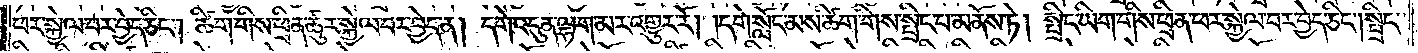ཕར་སྐྱེལ་བར་བྱེད་ཅིང༌། ཚིག་གིས་ཕྲིན་ཚུར་སྐྱེལ་བར་བྱེད་ན། དགེ་འདུན་ལྷག་མར་འགྱུར་རོ། །དགེ་སློང་མས་ཚིག་གིས་སྤྲིང་པ་མནོས་ཏེ། སྤྲིང་ཡིག་གིས་ཕྲིན་ཕར་སྐྱེལ་བར་བྱེད་ཅིང༌། སྤྲིང་
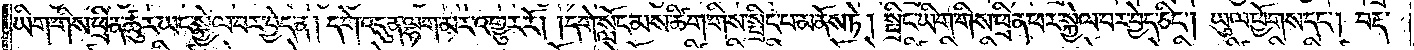ཡིག་གིས་ཕྲིན་ཚུར་ཡང་སྐྱེལ་བར་བྱེད་ན། དགེ་འདུན་ལྷག་མར་འགྱུར་རོ། །དགེ་སློང་མས་ཚིག་གིས་སྤྲིང་པ་མནོས་ཏེ། སྤྲིང་ཡིག་གིས་ཕྲིན་ཕར་སྐྱེལ་བར་བྱེད་ཅིང༌། ཡུལ་ཕྱོགས་དང༌། བརྡ་
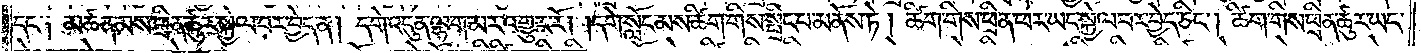དང་༑ མཚན་མས་ཕྲིན་ཚུར་སྐྱེལ་བར་བྱེད་ན། དགེ་འདུན་ལྷག་མར་འགྱུར་རོ། །དགེ་སློང་མས་ཚིག་གིས་སྤྲིང་པ་མནོས་ཏེ། ཚིག་གིས་ཕྲིན་ཕར་ཡང་སྐྱེལ་བར་བྱེད་ཅིང༌། ཚིག་གིས་ཕྲིན་ཚུར་ཡང་
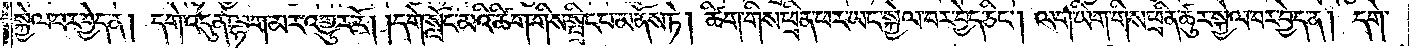སྐྱེལ་བར་བྱེད་ན། དགེ་འདུན་ལྷག་མར་འགྱུར་རོ། །དགེ་སློང་མའི་ཚིག་གིས་སྤྲིང་པ་མནོས་ཏེ། ཚིག་གིས་ཕྲིན་ཕར་ཡང་སྐྱེལ་བར་བྱེད་ཅིང༌། ལག་ཡིག་གིས་ཕྲིན་ཚུར་སྐྱེལ་བར་བྱེད་ན། དགེ་
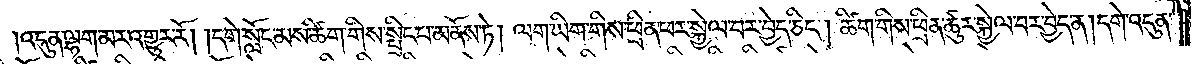འདུན་ལྷག་མར་འགྱུར་རོ། །དགེ་སློང་མས་ཚིག་གིས་སྤྲིང་པ་མནོས་ཏེ། ལག་ཡིག་གིས་ཕྲིན་ཕར་སྐྱེལ་བར་བྱེད་ཅིང༌། ཚིག་གིས་ཕྲིན་ཚུར་སྐྱེལ་བར་བྱེད་ན། དགེ་འདུན་
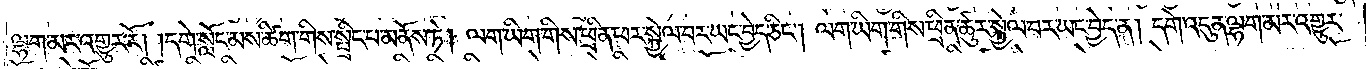ལྷག་མར་འགྱུར་རོ། །དགེ་སློང་མས་ཚིག་གིས་སྤྲིང་པ་མནོས་ཏེ། ལག་ཡིག་གིས་ཕྲིན་ཕར་སྐྱེལ་བར་ཡང་བྱེད་ཅིང༌། ལག་ཡིག་གིས་ཕྲིན་ཚུར་སྐྱེལ་བར་ཡང་བྱེད་ན། དགེ་འདུན་ལྷག་མར་འགྱུར་
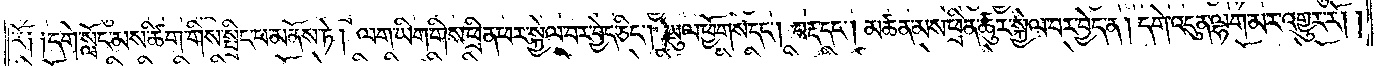རོ༑ ༑དགེ་སློང་མས་ཚིག་གིས་སྤྲིང་པ་མནོས་ཏེ། ལག་ཡིག་གིས་ཕྲིན་ཕར་སྐྱེལ་བར་བྱེད་ཅིང༌། ཡུལ་ཕྱོགས་དང༌། བརྡ་དང༌། མཚན་མས་ཕྲིན་ཚུར་སྐྱེལ་བར་བྱེད་ན། དགེ་འདུན་ལྷག་མར་འགྱུར་རོ། །
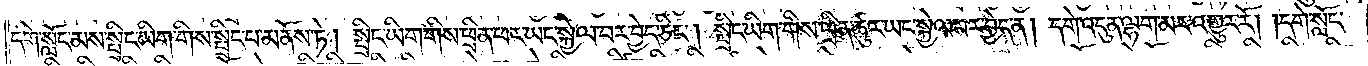དགེ་སློང་མས་སྤྲིང་ཡིག་གིས་སྤྲིང་པ་མནོས་ཏེ། སྤྲིང་ཡིག་གིས་ཕྲིན་ཕར་ཡང་སྐྱེལ་བར་བྱེད་ཅིང༌། སྤྲིང་ཡིག་གིས་ཕྲིན་ཚུར་ཡང་སྐྱེལ་བར་བྱེད་ན། དགེ་འདུན་ལྷག་མར་འགྱུར་རོ། །དགེ་སློང་
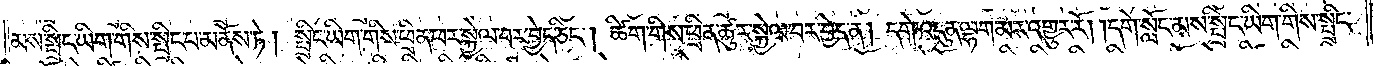མས་སྤྲིང་ཡིག་གིས་སྤྲིང་པ་མནོས་ཏེ། སྤྲིང་ཡིག་གིས་ཕྲིན་ཕར་སྐྱེལ་བར་བྱེད་ཅིང༌། ཚིག་གིས་ཕྲིན་ཚུར་སྐྱེལ་བར་བྱེད་ན། དགེ་འདུན་ལྷག་མར་འགྱུར་རོ། །དགེ་སློང་མས་སྤྲིང་ཡིག་གིས་སྤྲིང་
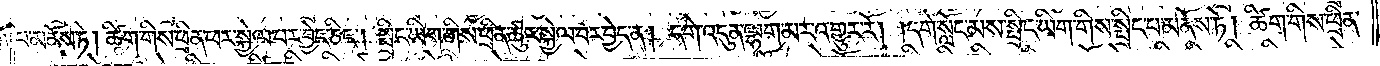པ་མནོས་ཏེ། ཚིག་གིས་ཕྲིན་ཕར་སྐྱེལ་བར་བྱེད་ཅིང༌། སྤྲིང་ཡིག་གིས་ཕྲིན་ཚུར་སྐྱེལ་བར་བྱེད་ན། དགེ་འདུན་ལྷག་མར་འགྱུར་རོ། །དགེ་སློང་མས་སྤྲིང་ཡིག་གིས་སྤྲིང་པ་མནོས་ཏེ། ཚིག་གིས་ཕྲིན་
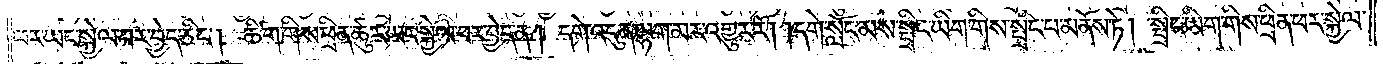ཕར་ཡང་སྐྱེལ་བར་བྱེད་ཅིང༌། ཚིག་གིས་ཕྲིན་ཚུར་ཡང་སྐྱེལ་བར་བྱེད་ན། དགེ་འདུན་ལྷག་མར་འགྱུར་རོ། །དགེ་སློང་མས་སྤྲིང་ཡིག་གིས་སྤྲིང་པ་མནོས་ཏེ། སྤྲིང་ཡིག་གིས་ཕྲིན་ཕར་སྐྱེལ་
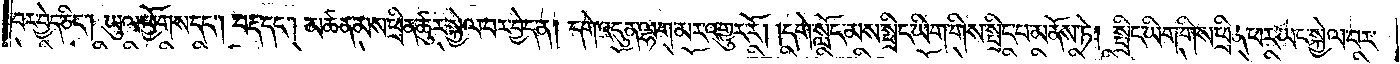བར་བྱེད་ཅིང༌། ཡུལ་ཕྱོགས་དང༌། བརྡ་དང༌། མཚན་མས་ཕྲིན་ཚུར་སྐྱེལ་བར་བྱེད་ན། དགེ་འདུན་ལྷག་མར་འགྱུར་རོ། །དགེ་སློང་མས་སྤྲིང་ཡིག་གིས་སྤྲིང་པ་མནོས་ཏེ། སྤྲིང་ཡིག་གིས་ཕྲིན་ཕར་ཡང་སྐྱེལ་བར་
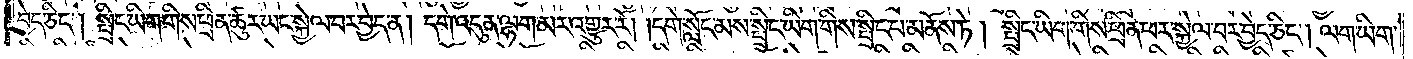བྱེད་ཅིང༌། སྤྲིང་ཡིག་གིས་ཕྲིན་ཚུར་ཡང་སྐྱེལ་བར་བྱེད་ན། དགེ་འདུན་ལྷག་མར་འགྱུར་རོ། །དགེ་སློང་མས་སྤྲིང་ཡིག་སྤྲིང་པ་མནོས་ཏེ། སྤྲིང་ཡིག་གིས་ཕྲིན་ཕར་སྐྱེལ་བར་བྱེད་ཅིང༌། ལག་ཡིག་
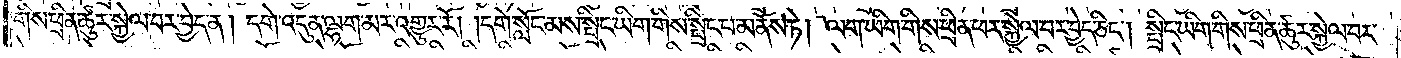གིས་ཕྲིན་ཚུར་སྐྱེལ་བར་བྱེད་ན། དགེ་འདུན་ལྷག་མར་འགྱུར་རོ། །དགེ་སློང་མས་སྤྲིང་ཡིག་གིས་སྤྲིང་པ་མནོས་ཏེ། ལག་ཡིག་གིས་ཕྲིན་ཕར་སྐྱེལ་བར་བྱེད་ཅིང༌། སྤྲིང་ཡིག་གིས་ཕྲིན་ཚུར་སྐྱེལ་བར་
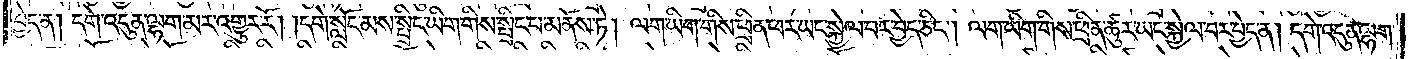བྱེད་ན། དགེ་འདུན་ལྷག་མར་འགྱུར་རོ། །དགེ་སློང་མས་སྤྲིང་ཡིག་གིས་སྤྲིང་པ་མནོས་ཏེ། ལག་ཡིག་གིས་ཕྲིན་ཕར་ཡང་སྐྱེལ་བར་བྱེད་ཅིང༌། ལག་ཡིག་གིས་ཕྲིན་ཚུར་ཡང་སྐྱེལ་བར་བྱེད་ན། དགེ་འདུན་ལྷག་
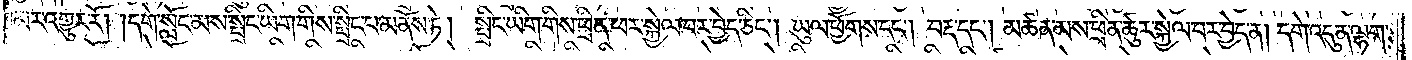མར་འགྱུར་རོ། །དགེ་སློང་མས་སྤྲིང་ཡིག་གིས་སྤྲིང་པ་མནོས་ཏེ། སྤྲིང་ཡིག་གིས་ཕྲིན་ཕར་སྐྱེལ་བར་བྱེད་ཅིང༌། ཡུལ་ཕྱོགས་དང༌། བརྡ་དང༌། མཚན་མས་ཕྲིན་ཚུར་སྐྱེལ་བར་བྱེད་ན། དགེ་འདུན་ལྷག་
